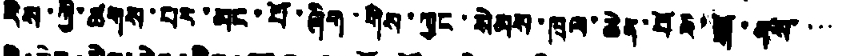རིས་ཀྱི་ཚགས་པར་མང་པོ་ཞིག་གིས་ཀྱང་སེམས་ཁྲལ་ཆེན་པོའི་སྒོ་ནས་་་་
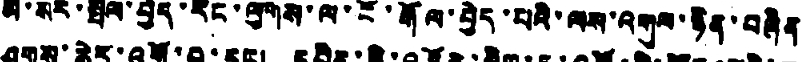མི་སེར་སྤེལ་བྱེད་རིང་ལུགས་ལ་ངོ་རྒོལ་བྱེད་པའི་ལས་འགུལ་ཉིན་བཞིན
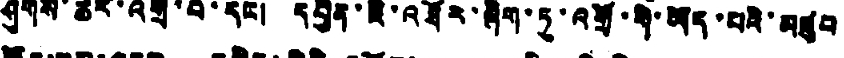ཤུགས་ཆེར་འགྲོ་བ་དང། དབྱིན་ཇི་འཐོར་ཞིག་ཏུ་འགྲོ་གི་ཡོད་པའི་མཛུབ
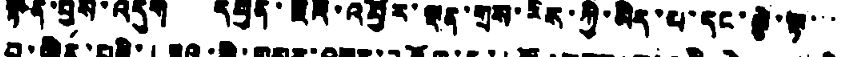སྟོན་བྱས་འདུག དབྱིན་ཇིའི་འབྱོར་ལྡན་གྲས་རིས་ཀྱི་མེད་པ་དང་ལྕེ་ལྟ་་་
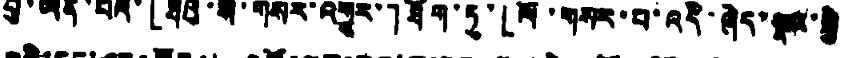བུ་ཡིན་པའི་「ཐའུ་སི་གསར་འགྱུར་」ཐོག་ཏུ་「ལོ་གསར་པ་འདི་ཞེད་སྣང་སྐྱེ
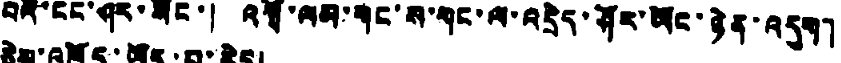པའི་ངང་ཤར་སོང་། འགྲོ་ལམ་གང་ས་གང་ལ་འདྲེད་ཤོར་ཡོང་ཉེན་འདུག」
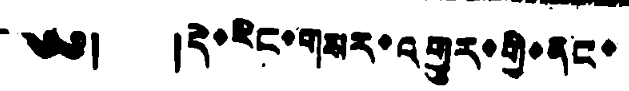༄༅། །དེ་རིང་གསར་འགྱུར་གྱི་ནང་
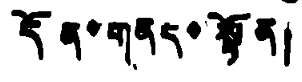དོན་གནད་སྟོན།
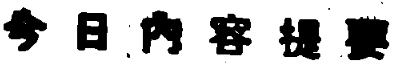今日內容提要
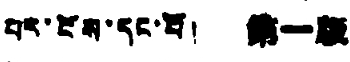པར་ངོས་དང་པོ། 第一版
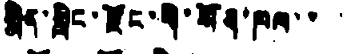སྨིན་གླིང་རྫོང་གི་སོན་ཁལ་་་
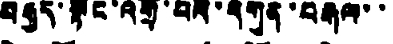བརྒྱད་སྟོང་འགྲོ་བའི་དགུན་བརྒལ་་
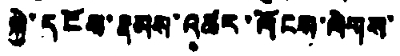སྐྱེ་དངོས་རྣམས་འཚར་ལོངས་ལེགས་
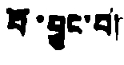པོ་བྱུང་བ།
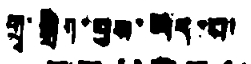གྲྭ་སྒྲིག་བྱས་ཡོད་པ།
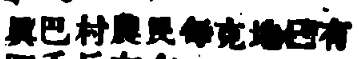眞巴村農民每克地已有
